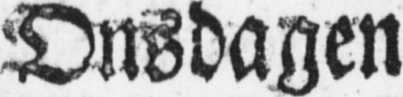Onsdagen
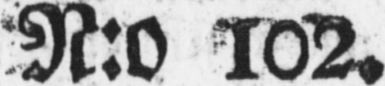N:o 102.
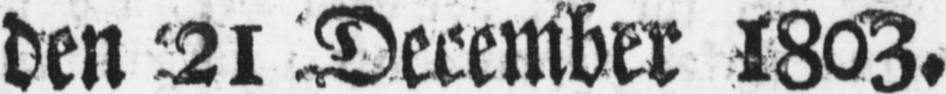den 21 December l803.
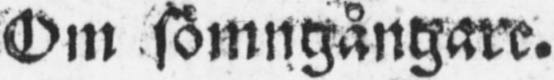Om sömngångare.
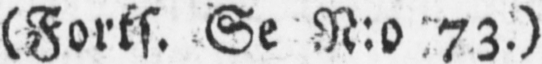(Forts. Se N:o 73.)
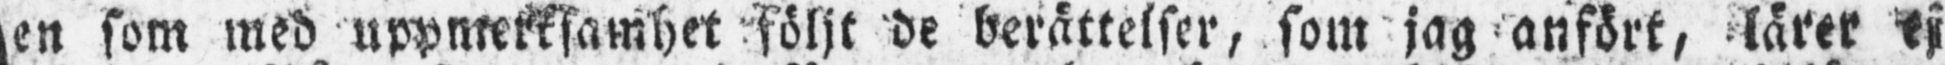en som med uppmerksamhet följt de berättelser, som jag anfört, lärer ej
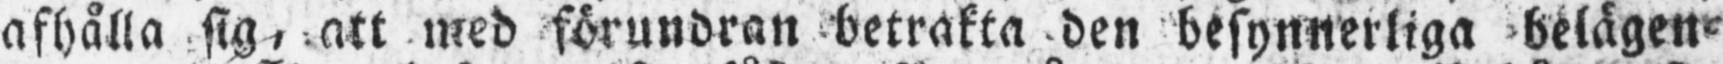kunna afhålla sig, att med förundran betrakta den besynnerliga belägen-
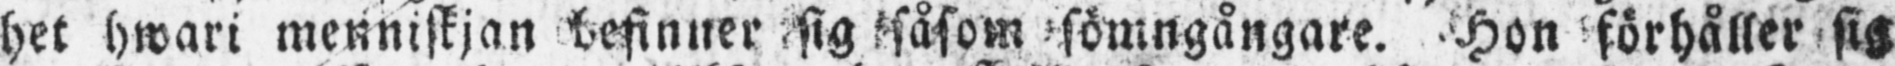het hwari menniskjan befinner sig såsom sömngångare. Hon förhåller sig
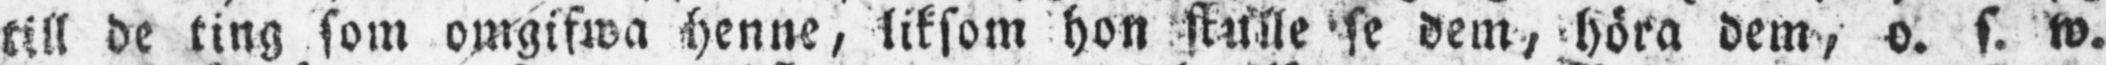till de ting som omgifwa henne, liksom hon skulle se dem, höra dem, o. s. w.
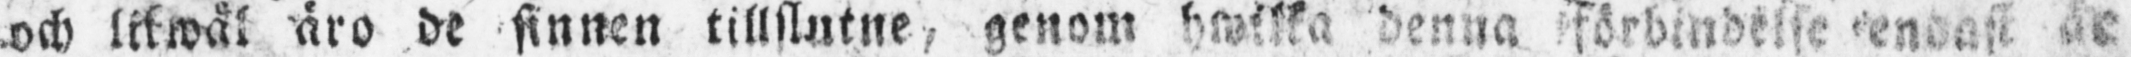och likwäl äro de sinnen tillslutne, genom hwilka denna förbindelse endast är
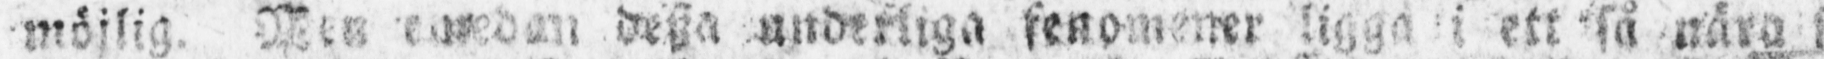möjlig. Men emedan dessa underliga fenomener ligga i ett så nära sammanhang
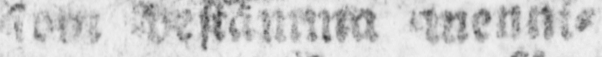som bestämma menni-
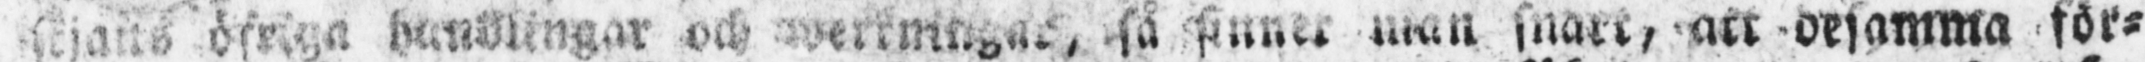skjans öfriga handlingar och werkningar, så finner man snart, att desamma för-
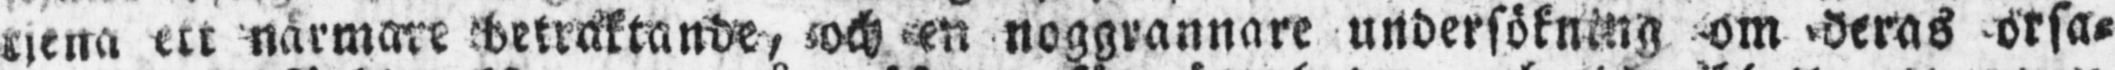tjena ett närmare betraktande, och en noggrannare undersökning om deras orsa-
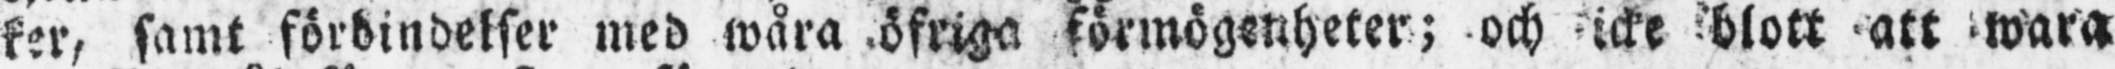ker, samt förbindelser med wåra öfriga förmögenheter; och icke blott att wara
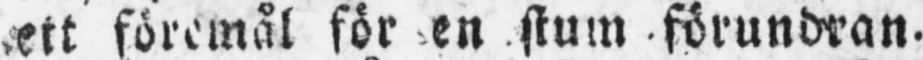ett föremål för en stum förundran.
